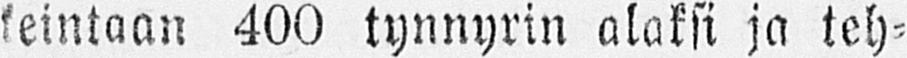keintaan 400 tynnyrin alaksi ja teh-
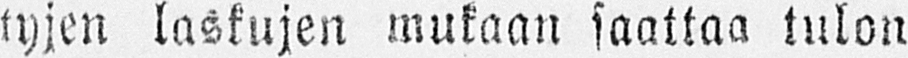tyjen laskujen mukaan saattaa tulon
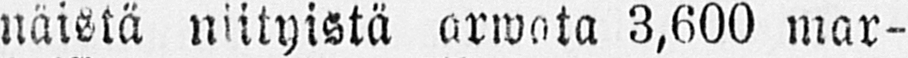näistä niityistä arwota 3,600 mar-
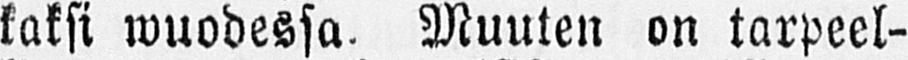kaksi wuodessa. Muuten on tarpeel-
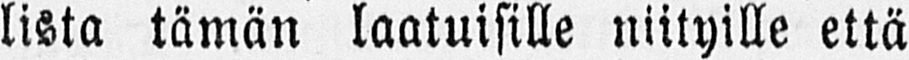lista tämän laatuisille niityille että
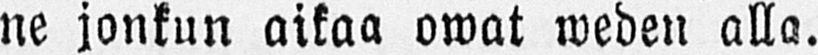ne jonkun aikaa owat weden alla.
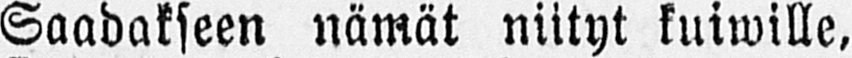Saadakseen nämät niityt kuiwille,
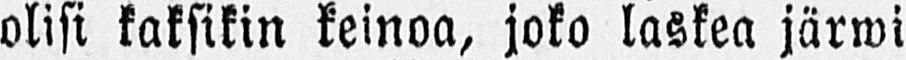olisi kaksikin keinoa, joko laskea järwi
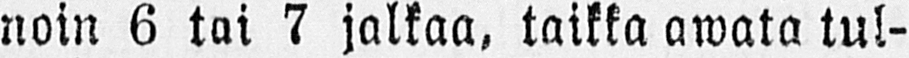noin 6 tai 7 jalkaa, taikka awata tul-
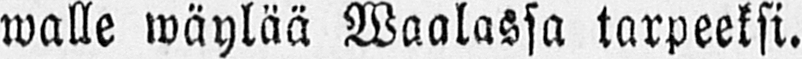walle wäylää Waalassa tarpeeksi.
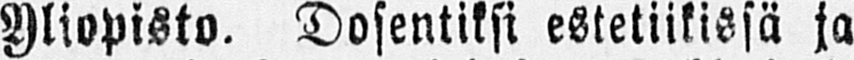Yliopisto. Dosentiksi estetiikissä ja
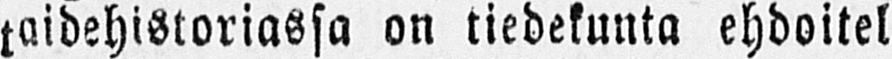taidehistoriassa on tiedekunta ehdoitel
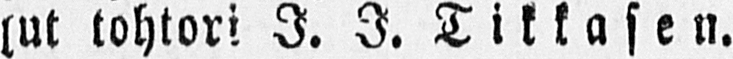lut tohtori I. I. Tikkasen.
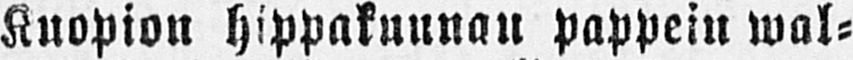Kuopion hippakuunan pappein wal-
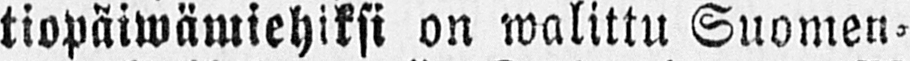tiopäiwämiehiksi on walittu Suomen-
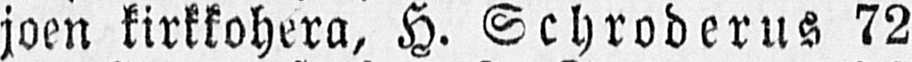joen kirkkohera, H. Schroderus 72
